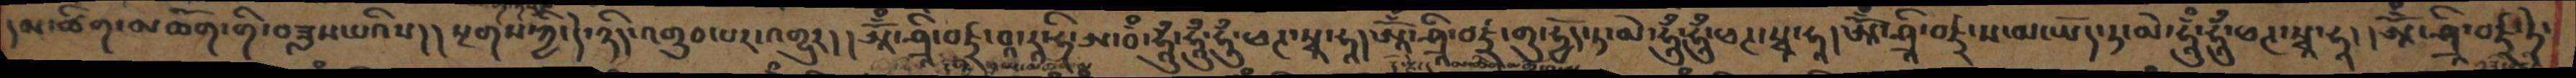དམ་ཚིག་མཆོག་གི་བཟླས་པའིས། །སྔགས་ཀྱི་དེ་ཉིད་འགྲུབ་པར་འགྱུར། །ཨཱོྃ་ཤྲཱི་བཛྲ་བཱ་ར་ཧི་ཨ་བྃ་ཧཱུྃ་ཧཱུྃ་ཧཱུྃ་ཕཊ་སྭཱ་ཧཱ། ཨཱོྃ་ཤྲཱི་བཛྲ་གུ་ཧྱོད་ཏ་མེ་ཧཱུྃ་ཧཱུྃ་ཕཊ་སྭཱ་ཧཱ། ཨཱོྃ་ཤྲཱི་བཛྲ་ས་མ་ཡོད་ཏ་མེ་ཧཱུྃ་ཧཱུྃ་ཕཊ་སྭཱ་ཧཱ། ཨཱོྃ་ཤྲཱི་བཛྲ་ཏཱེ་
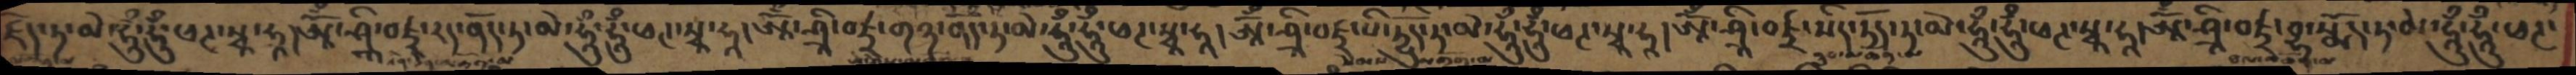ཛོད་ཏ་མེ་ཧཱུྃ་ཧཱུྃ་ཕཊ་སྭཱ་ཧཱ། ཨཱོྃ་ཤྲཱི་བཛྲ་རད་ནོད་ཏ་མེ་ཧཱུྃ་ཧཱུྃ་ཕཊ་སྭཱ་ཧཱ། ཨཱོྃ་ཤྲཱི་བཛྲ་གཉ་ནོད་ཏ་མེ་ཧཱུྃ་ཧཱུྃ་ཕཊ་སྭཱ་ཧཱ། ཨཱོྃ་ཤྲཱི་བཛྲ་པི་ཏྱོུད་ཏ་མེ་ཧཱུྃ་ཧཱུྃ་ཕཊ་སྭཱ་ཧཱ། ཨཱོྃ་ཤྲཱི་བཛྲ་སིད་ཏོད་ཏ་མེ་ཧཱུྃ་ཧཱུྃ་ཕཊ་སྭཱ་ཧཱ། ཨཱོྃ་ཤྲཱི་བཛྲ་བྷ་སྨོད་ཏ་མེ་ཧཱུྃ་ཧཱུྃ་ཕཊ་
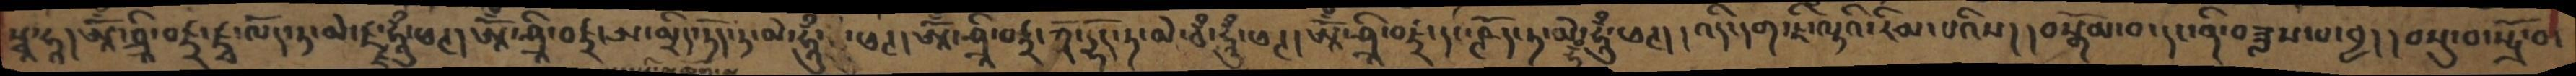སྭཱ་ཧཱ། ཨཱོྃ་ཤྲཱི་བཛྲ་ཛྭ་ལོད་ཏ་མེ་ཛྫ་ཧཱུྃ་ཕཊ། ཨཱོྃ་ཤྲཱི་བཛྲ་ཨ་མྲིད་ཏོད་ཏ་མེ་ཧཱུྃ་ཕཊ། ཨཱོྃ་ཤྲཱི་བཛྲ་ཀྲོ་དྷོད་ཏ་མེ་བྃ་ཧཱུྃ་ཕཊ། ཨཱོྃ་ཤྲཱི་བཛྲ་དང་ཤྚོད་ཏ་མེ་དྷ་ཧཱུྃ་ཕཊ། འདི་དག་ཇི་ལྟའི་རིམ་པའིས། །བསྒོམ་བ་དང་ནི་བཟླས་པ་བྱ། །བསྡུ་བ་སྤྲོ་བ
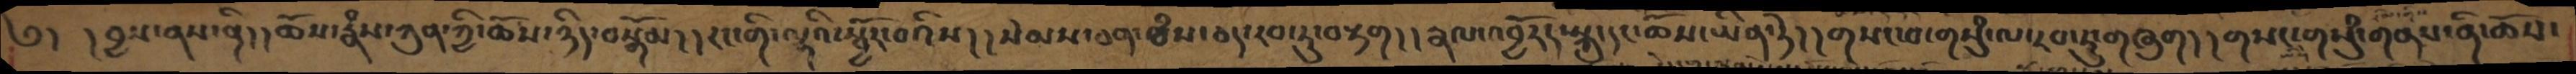༄། །བྱས་ནས་ནི། །ཆོས་རྣཾས་ཀུན་ཀྱི་ཆོས་ཉིད་བསྒོམ། །རང་གི་ལྷའི་སྦྱོར་བའིས། །སེམས་ཅན་ཐཾས་ཅད་རབ་ཏུ་བརྟག། །རྣལ་འབྱོརད་སྐུ་དང་ཆོས་ཡིན་ཏེ། །གསང་བ་གསུཾ་ལ་རབ་ཏུ་གཞུག། །གསང་གསུཾ་གནས་ནི་ཆོས་
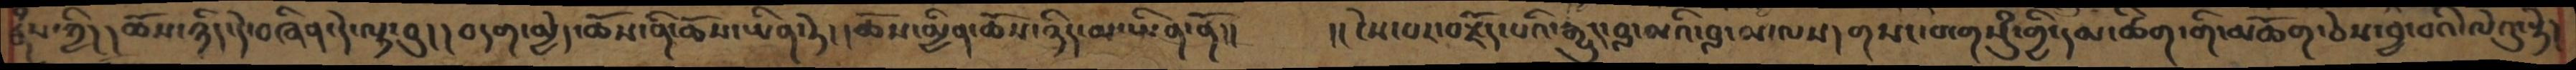རྣཾས་ཀྱི། །ཆོས་ཉིད་དེ་བཞིན་དེ་ལྟ་བུ་། །བདག་མྱེད་ཆོས་ནི་ཆོས་ཡིན་ཏེ། །ཆོས་མྱིན་ཆོས་ཉིད་མ་ཡིན་ནོ།།    །།ངེས་པར་བརྗོད་པའི་རྒྱུད་བླ་མའི་བླ་མ་ལས། གསང་བ་གསུཾ་གྱི་དམ་ཚིག་གི་མཆོག་ཅེས་བྱ་བའི་ལེའུ་སྟེ།
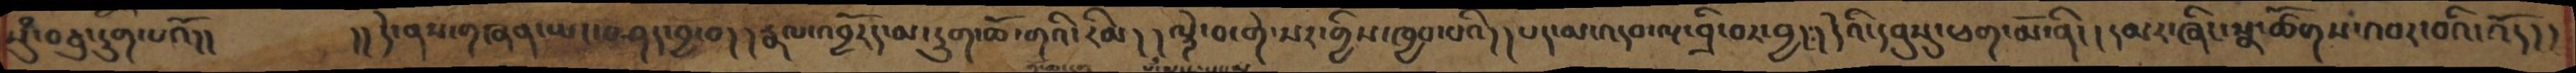སུཾ་བཅུ་དྲུག་པའོ།།   །།དེ་ནས་གཞན་ཡང་བཤད་བྱ་བ། །རྣལ་འབྱོརད་མ་དྲུག་ཆོ་གའི་རིམ། །ལྟེ་བ་གེ་སར་གྱིས་ཁྱབ་པའི། །པད་མ་འདབ་ལྔ་བྲི་བར་བྱ། །དེའི་དབུསུ་ཕག་མོ་ནི། །དམར་ཞིང་སྣ་ཚོགས་འབར་བའི་འོད།།
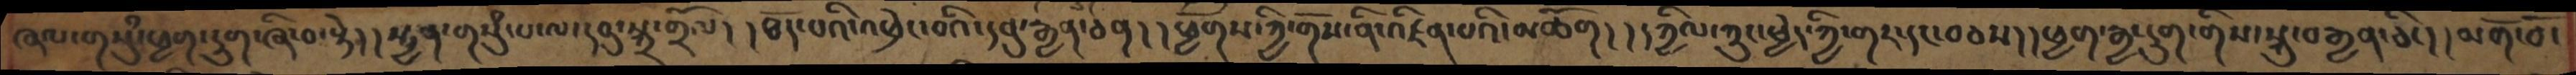ཞལ་གསུཾ་ཕྱག་དྲུག་ཞི་བ་སྟེ། །སྤྱན་གསུཾ་པ་ལ་དབུ་སྐྲ་གྲོལ། །ཐོད་པའི་འཕྲེང་བའི་དབུ་རྒྱན་ཅན། །ཕྱོགས་ཀྱི་གོས་ནི་འཛིན་པའི་མཆོག། །དཀྱིལ་ཀྲུང་ཕྱེད་ཀྱི་གར་དང་བཅས། །ཕྱག་རྒྱ་དྲུག་གིས་སྐུ་བརྒྱན་ཅིང། །མགོ་བོ་
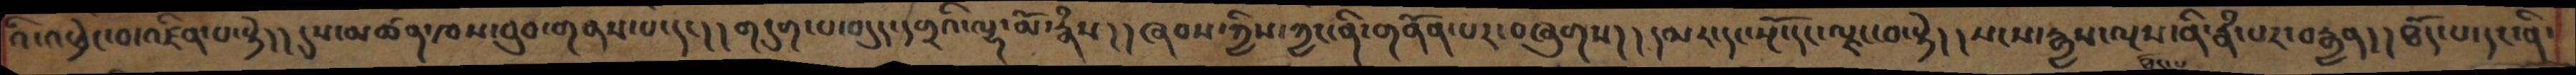འི་འཕྲེང་བ་འཛིན་པ་སྟེ། །དུས་མཚན་ཁས་བུབ་གནས་པ་དང། །གདུག་པ་བདུད་དགྲའི་ལྷ་མོ་རྣཾས། །ཞབས་ཀྱིས་ཀྱང་ནི་གནོན་པར་བཞུགས། །དམར་དང་སྔོ་དང་ལྗང་བ་སྟེ། །སངས་རྒྱས་ལྔས་ནི་རྣཾ་པར་བརྒྱན། །ཐོད་པ་དང་ནི་
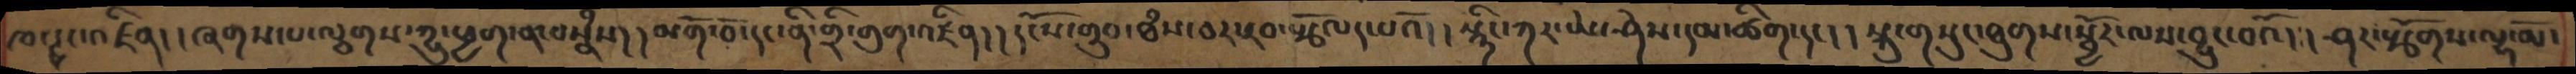ཁ་ཊྭང་འཛིན། །ཞགས་པ་ལྕགས་ཀྱུ་ཕྱག་ན་བསྣཾས། །མགོ་བོ་དང་ནི་གྲི་གུག་འཛིན། །དངོས་གྲུབ་ཐཾས་ཅད་རབ་སྩོལད་པའོ། །སྙིང་ཀར་ཡེ་ཤེས་དམ་ཚིག་དང། །སྐུ་གསུང་ཐུགས་སྦྱོར་ལས་བྱུང་བའོ། །ཤར་སྩོགས་ལྷ་མོ་
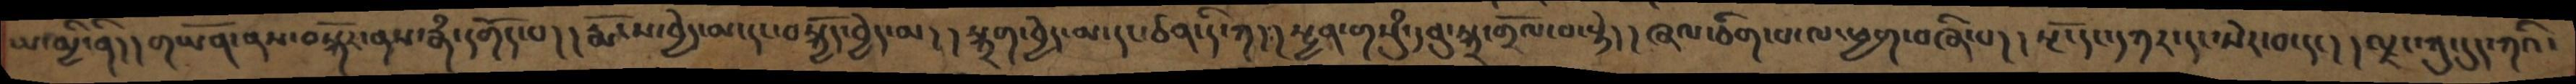ཡ་མྱི་ནི།།གཡོན་ནས་བསྐོར་ནས་རྣཾ་དགོད་པ། །རྨོངས་བྱེད་མ་དང་བསྐྱོད་བྱེད་མ། །སྐྲག་བྱེད་མ་དང་ཙན་དི་ཀ། །སྤྱན་གསུཾ་དབུ་སྐྲ་གྲོལ་བ་སྟེ། །ཞལ་ཅིག་པ་ལ་ཕྱག་བཞི་པ། །སྔོ་དང་དཀར་དང་སེར་བ་དང། །ལྗང་ཀུ་དུད་ཀའི་
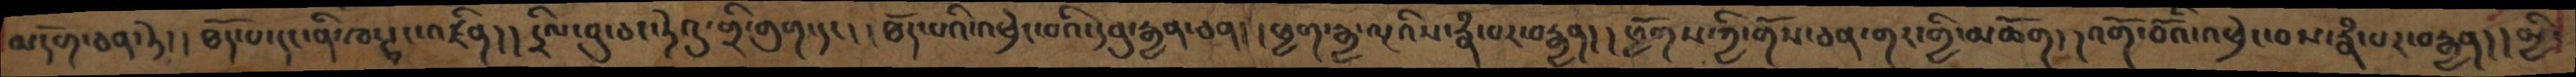མདོག་ཅན་ཏེ། །ཐོད་པ་དང་ནི་ཁ་ཊྭང་འཛིན། ། དྲིལ་བུ་ཅང་ཏེའུ་གྲི་གུག་དང། །ཐོད་པའི་འཕྲེང་བའི་དབུ་རྒྱན་ཅན། །ཕྱག་རྒྱ་ལྔའིས་རྣཾ་པར་བརྒྱན། །ཕྱོགས་ཀྱི་གོས་ཅན་གར་གྱི་མཆོག། །འགོ་བོའི་འཕྲེང་བས་རྣཾ་པར་བརྒྱན། །མྱི་
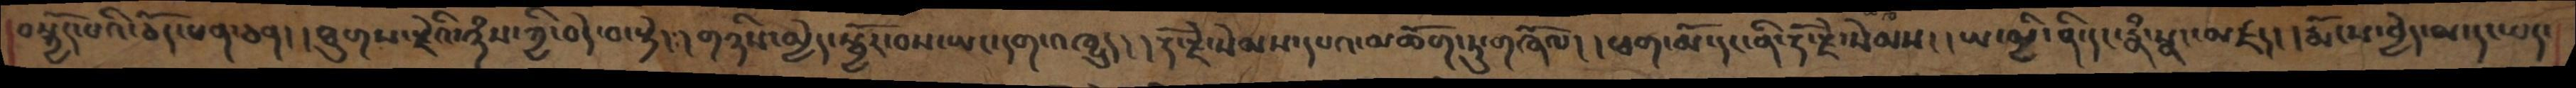བསྐྱོད་པའི་ཅོད་པན་ཅན། །ཐུགས་རྗེའི་ཉཾས་ཀྱི་བདེ་བ་སྟེ། །གཉིས་མྱེད་སྦྱོར་བས་ཡང་དག་འཁྱུད། །རྡོ་རྗེ་སེམས་དཔའ་མཆོག་ཏུ་གཞོལ། །ཕག་མོ་དང་ནི་རྡོ་རྗེ་སེམས། །ཡ་མྱི་ནི་དང་རྣཾ་སྣང་མཛད། །རྨོངས་བྱེད་མ་དང་པད་
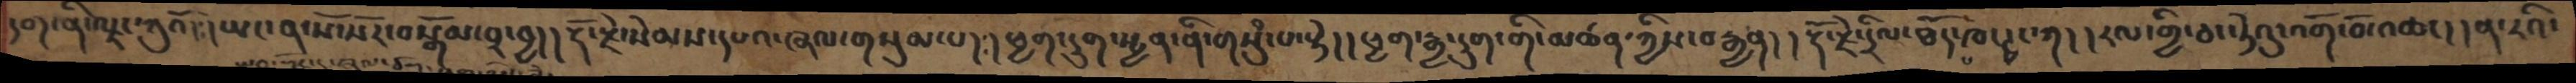དག་ནི་ལྗང་ཀུའོ། །ཡང་ན་སོ་སོར་བསྒོམ་བར་བྱ། །རྡོ་རྗེ་སེམས་དཔའ་ཞལ་གསུམ་པ། །ཕྱག་དྲུག་སྤྱན་ནི་གསུཾ་པ་སྟེ། །ཕྱག་རྒྱ་དྲུག་གི་མཚན་ཀྱིས་བརྒྱན། །རྡོ་རྗེ་དྲིལ་ཐོད་ཁ་ཊྭང་ཀ། །རལ་གྱི་ཅང་ཏེའུ་འགོ་བོ་འཆང། །ན་རའི་
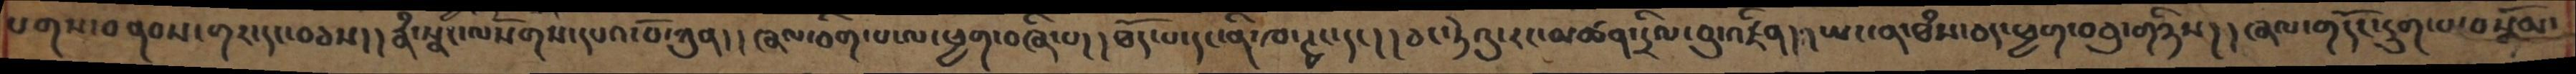པགས་བནབས་གར་དང་བཅས། །རྣཾ་སྣང་ལསོགས་དཔའ་བོ་ཀུན། །ཞལ་ཅིག་པ་ལ་ཕྱག་བཞི་པ། །ཐོད་པ་དང་ནི་ཁ་ཊྭང་དང། །ཅང་ཏེའུ་རང་མཚན་དྲིལ་བུ་འཛིན། །ཡང་ན་ཐཾས་ཅད་ཕྱག་བཅུ་གཉིས། །ཞལ་གདོང་དྲུག་པ་བསྒོམ་
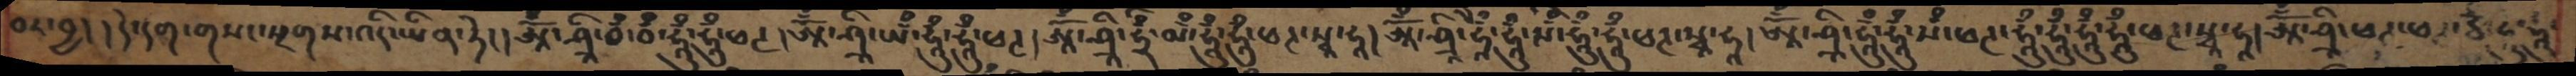བར་བྱ། །དེ་དག་གསང་སྔགས་འདི་ཡིན་ཏེ། །ཨཱོྃ་ཤྲཱི་བྃ་བྃ་ཧཱུྃ་ཧཱུྃ་ཕཊ། ཨཱོྃ་ཤྲཱི་ཡྃ་ཧཱུྃ་ཧཱུྃ་ཕཊ། ཨཱོྃ་ཤྲཱི་ཧྲྃ་མྃ་ཧཱུྃ་ཧཱུྃ་ཕཊ་སྭཱ་ཧཱ། ཨཱོྃ་ཤྲཱི་ཧཱྃ་ཧཱུྃ་སྃ་ཧཱུྃ་ཧཱུྃ་ཕཊ་སྭཱ་ཧཱ། ཨཱོྃ་ཤྲཱི་ཧཱུྃ་ཧཱུྃ་སྃ་ཕཊ་ཧཱུྃ་ཧཱུྃ་ཧཱུྃ་ཧཱུྃ་ཕཊ་སྭཱ་ཧཱ། ཨཱོྃ་ཤྲཱི་ཕཊ་ཕཊ་ཙྃ་ཧཱུྃ་ཧཱུྃ་
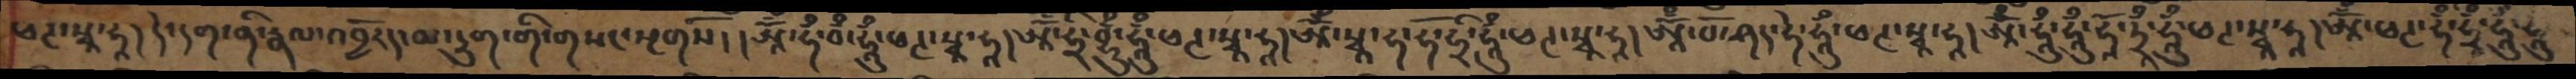ཕཊ་སྭཱ་ཧཱ།དེ་དག་ནི་རྣལ་འབྱོརད་མ་དྲུག་གི་གསང་སྔགསོ།། ཨཱོྃ་ཧྃ་བྃ་ཧཱུྃ་ཕཊ་སྭཱ་ཧཱ། ཨཱོྃ་ཧྲི་བྷུྃ་ཧཱུྃ་ཕཊ་སྭཱ་ཧཱ།ཨཱོྃ་སྭ་་ཧ་ཧོ་་ཧྲི་ཧཱུྃ་ཕཊ་སྭ་ཧཱ། ཨཱོྃ་པོ་ཤད་ཧེ་ཧཱུྃ་ཕཊ་སྭཱ་ཧཱ། ཨཱོྃ་ཧཱུྃ་ཧཱུྃ་ཧཱོ་ཏྲཱྃ་ཧཱུྃ་ཕཊ་སྭཱ་ཧཱ། ཨཱོྃ་ཕཊ་ཧྃ་ཧྲྭྃ་ཧཱུྃ་ཧཱུྃ
